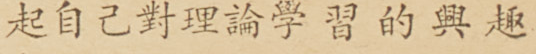其自己對理論學習的興趣
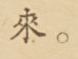來。
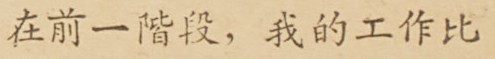在前一階段，我的工作比
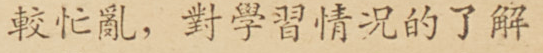較忙亂，對學習情況的了解
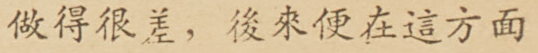做得很差，後來便在這方面
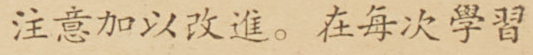主義加以改進。在每次學習
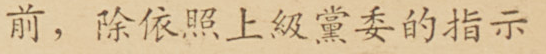前，除依照上級黨委的指示
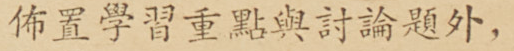佈置學習重點與討論題外，
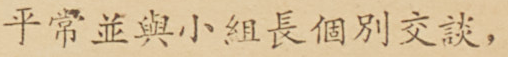平常並與小組長個別交談，
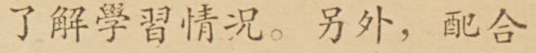了解學習情況。另外，配合
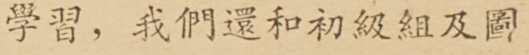學習，我們還和初級組及圖
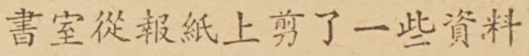書室從報紙上剪了一些資料
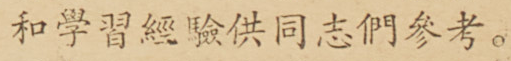和學習經驗供同志們參考。
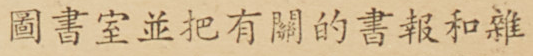圖書室並把有關的書報和雜
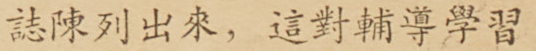誌陳列出來，這對輔導學習
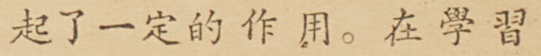起了一定的作用。在學習
